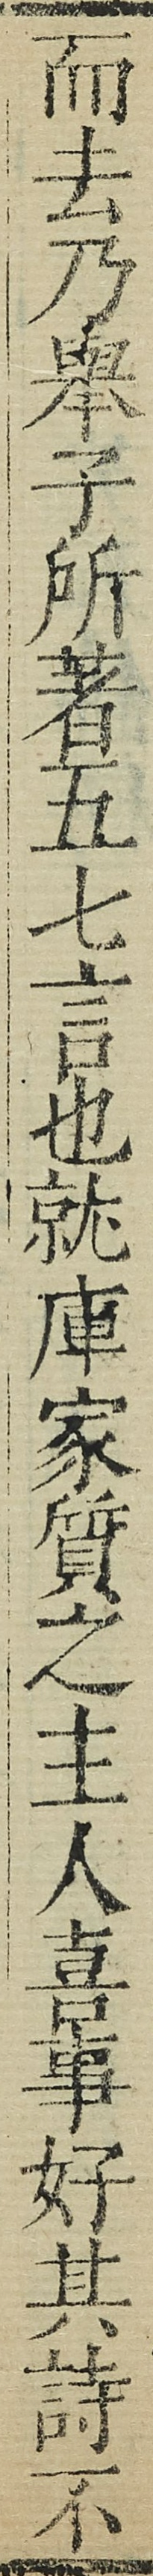而去乃舉子所著五七言也就庫家質之主人喜事好其詩不
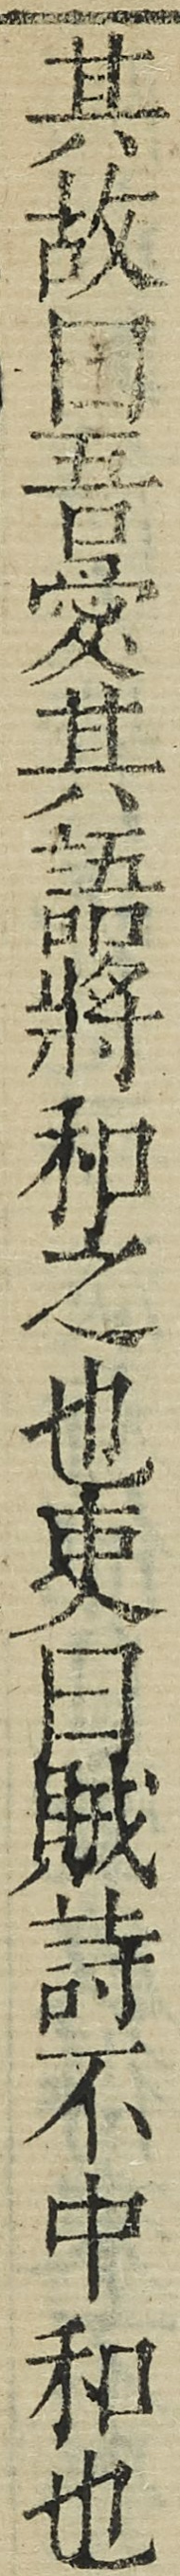其故曰吾愛其語將和之也吏曰賊詩不中和也
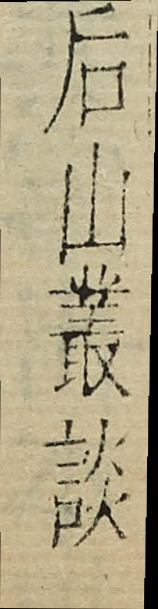后山叢談
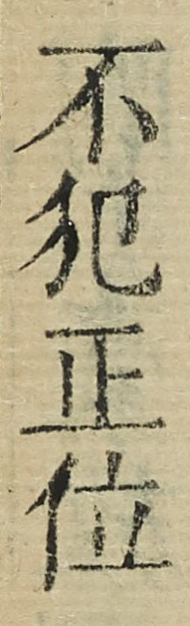不犯正位
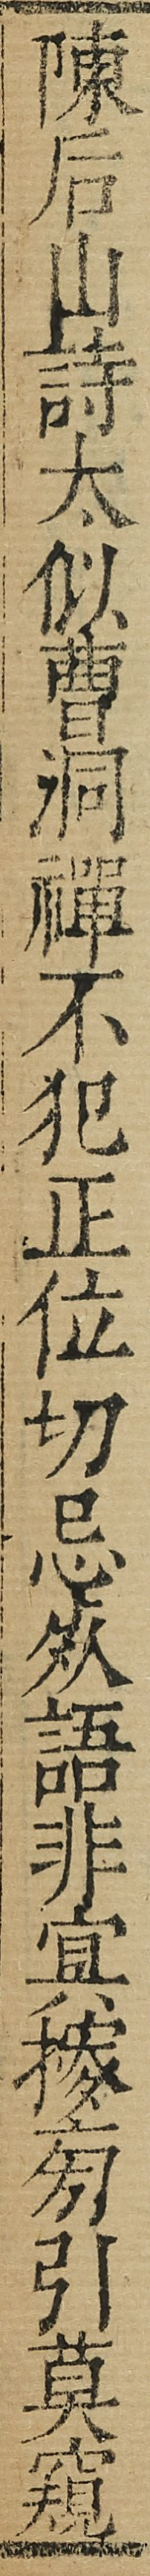陳后山詩太似曹洞禪不犯正位切忌死語非㝠摉旁引莫窺
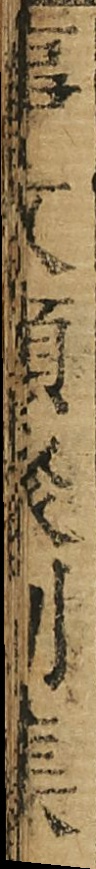事文類聚别集
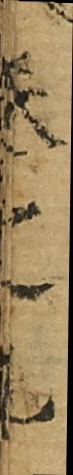卷之九
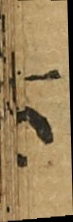六
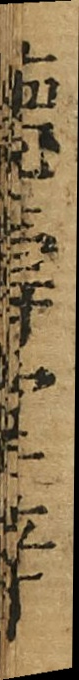德壽堂梓
